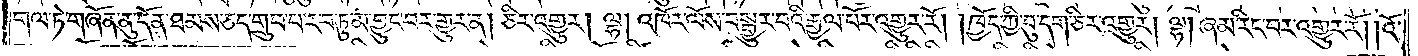གལ་ཏེ་གཞོན་ནུ་དོན་ཐམས་ཅད་གྲུབ་པ་རབ་ཏུ་མ་བྱུང་བར་གྱུར་ན། ཅིར་འགྱུར། ལྷ། འཁོར་ལོས་བསྒྱུར་བའི་རྒྱལ་པོར་འགྱུར་རོ། །ཁྱོད་ཀྱི་བུ་དག་ཅིར་འགྱུར། ལྷ། ཞམ་རིང་བར་འགྱུར་རོ། །འོ་
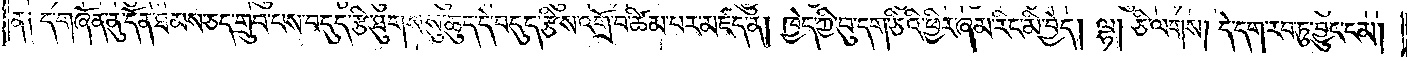ན༑ ད་གཞོན་ནུ་དོན་ཐམས་ཅད་གྲུབ་པས་བདུད་རྩི་ཐུགས་སུ་ཆུད་དེ་བདུད་རྩིས་འགྲོ་བ་ཚིམ་པར་མཛད་ན། ཁྱོད་ཀྱི་བུ་དག་ཅིའི་ཕྱིར་ཞམ་རིང་མི་བྱེད། ལྷ། ཅི་ལགས། དེ་དག་རབ་ཏུ་བྱུང་ངམ།
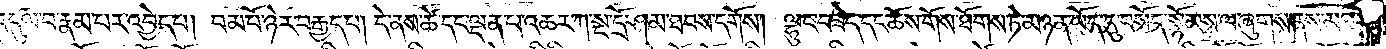འདུལ་བ་རྣམ་པར་འབྱེད་པ། བམ་པོ་ཉེ་བརྒྱད་པ། དེ་ནས་ཚེ་དང་ལྡན་པ་འཆར་ཀ་སྔ་དྲོ་ཤམ་ཐབས་དགོས། ལྷུང་བཟེད་དང་ཆོས་གོས་ཐོགས་ཏེ་མཉན་ཡོད་དུ་བསོད་སྙོམས་ལ་ཞུགས་ནས་མཐར་
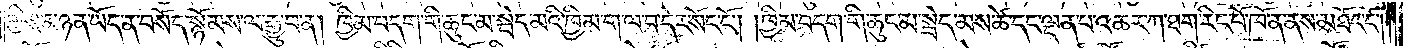གྱིས་མཉན་ཡོད་ན་བསོད་སྙོམས་ལ་རྒྱུ་བ་ན། ཁྱིམ་བདག་གི་ཆུང་མ་སྦེད་མའི་ཁྱིམ་ག་ལ་བ་དེར་སོང་ངོ༌། །ཁྱིམ་བདག་གི་ཆུང་མ་སྦེད་མས་ཚེ་དང་ལྡན་པ་འཆར་ཀ་ཐག་རིང་པོ་ཁོ་ན་ནས་མཐོང་ངོ༌། །
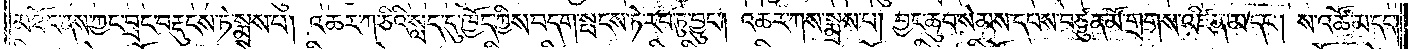མཐོང་ནས་ཀྱང་བྲང་བརྡུངས་ཏེ་སྨྲས་པ། འཆར་ཀ་ཅིའི་སླད་དུ་ཁྱོད་ཀྱིས་བདག་སྤངས་ཏེ་རབ་ཏུ་བྱུང༌། འཆར་ཀས་སྨྲས་པ། བྱང་ཆུབ་སེམས་དཔས་བཙུན་མོ་གྲགས་འཛིན་མ་དང༌། ས་འཚོ་མ་དང༌།
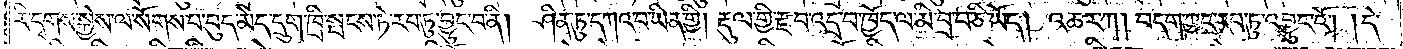རི་དྭགས་སྐྱེས་ལ་སོགས་པ་བུད་མེད་དྲུག་ཁྲི་སྤངས་ཏེ་རབ་ཏུ་བྱུང་བ་ནི། ཤིན་ཏུ་དཀའ་བ་ཡིན་གྱི། རྡུལ་གྱི་རྫ་བ་འདྲ་བ་ཁྱོད་ལ་མི་བྲ་བ་ཅི་ཡོད། འཆར་ཀ། བདག་ཀྱང་རབ་ཏུ་འབྱུང་ངོ༌། །དེ་
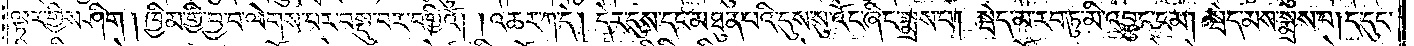ལྟར་གྱིས་ཤིག །ཁྱིམ་གྱི་བྱ་བ་ལེགས་པར་བསྡུ་བར་བགྱིའོ། །འཆར་ཀ་དེ། དེར་དུས་དང་མཐུན་པའི་དུས་སུ་འོང་ཞིང་སྨྲས་པ། སྦེད་མ་རབ་ཏུ་མི་འབྱུང་ངམ། སྦེད་མས་སྨྲས་པ། ད་དུང་
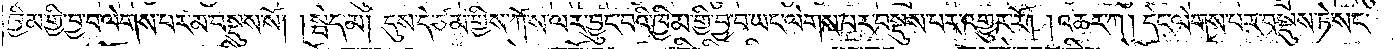ཁྱིམ་གྱི་བྱ་བ་ལེགས་པར་མ་བསྡུས་སོ། །སྦེད་མ། དུས་དེ་ཙམ་གྱིས་ཀོ་ས་ལར་བྱུང་བའི་ཁྱིམ་གྱི་བྱ་བ་ཡང་ལེགས་པར་བསྡུས་པར་འགྱུར་རོ། །འཆར་ཀ། དེང་ལེགས་པར་བསྡུས་ཏེ་སང་
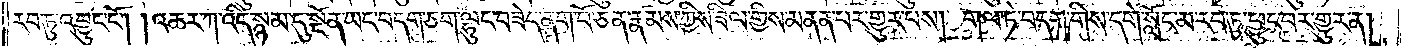རབ་ཏུ་འབྱུང་ངོ༌། །འཆར་ཀ་འདི་སྙམ་དུ་སྔོན་ཡང་བདག་ཅག་ལྷུང་བཟེད་ནག་པོ་ཅན་རྣམས་ཀྱིས་ཟིལ་གྱིས་མནན་པར་གྱུར་པས། གལ་ཏེ་བདག་གིས་དགེ་སློང་མ་རབ་ཏུ་ཕྱུང་བར་གྱུར་ན།
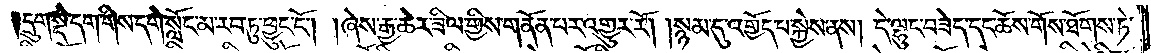དྲུག་སྡེ་དག་གིས་དགེ་སློང་མ་རབ་ཏུ་ཕྱུང་ངོ༌། །ཞེས་རྒྱ་ཆེར་ཟིལ་གྱིས་གནོན་པར་འགྱུར་རོ། །སྙམ་དུ་འགྱོད་པ་སྐྱེས་ནས། དེ་ལྷུང་བཟེད་དང་ཆོས་གོས་ཐོགས་ཏེ་
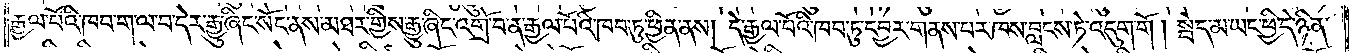རྒྱལ་པོའི་ཁབ་ག་ལ་བ་དེར་རྒྱུ་ཞིང་སོང་ནས་མཐར་གྱིས་རྒྱུ་ཞིང་འགྲོ་བ་ན་རྒྱལ་པོའི་ཁབ་ཏུ་ཕྱིན་ནས། དེ་རྒྱལ་པོའི་ཁབ་ཏུ་དབྱར་གནས་པར་ཁས་བླངས་ཏེ་འདུག་གོ །སྦེད་མ་ཡང་ཕྱི་དེ་ཉིན་
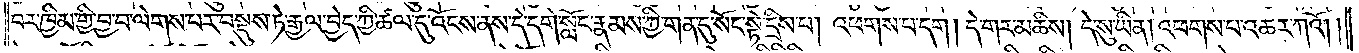བར་ཁྱིམ་གྱི་བྱ་བ་ལེགས་པར་བསྡུས་ཏེ་རྒྱལ་བྱེད་ཀྱི་ཚལ་དུ་འོངས་ནས་དེ་དགེ་སློང་རྣམས་ཀྱི་གན་དུ་སོང་སྟེ་དྲིས་པ། འཕགས་པ་དག །དེ་གར་མཆིས། དེ་སུ་ཡིན། འཕགས་པ་འཆར་ཀའོ། །
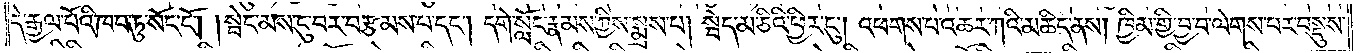དེ་རྒྱལ་པོའི་ཁབ་ཏུ་སོང་ངོ༌། །སྦེད་མས་ངུ་བར་བརྩམས་པ་དང༌། དགེ་སློང་རྣམས་ཀྱིས་སྨྲས་པ། སྦེད་མ་ཅིའི་ཕྱིར་ངུ༌། འཕགས་པ་འཆར་ཀའི་མཆིད་ནས། ཁྱིམ་གྱི་བྱ་བ་ལེགས་པར་བསྡུས་
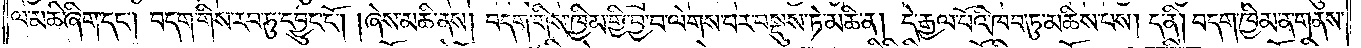ལ་མཆི་ཞིག་དང༌། བདག་གིས་རབ་ཏུ་དབྱུང་ངོ༌། །ཞེས་མཆི་ནས། བདག་གིས་ཁྱིམ་གྱི་བྱ་བ་ལེགས་པར་བསྡུས་ཏེ་མཆི་ན། དེ་རྒྱལ་པོའི་ཁབ་ཏུ་མཆིས་པས། ད་ནི། བདག་ཁྱིམ་ན་གནས་
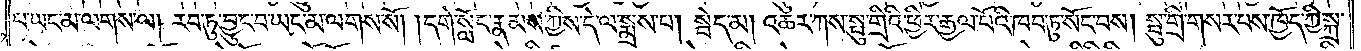པ་ཡང་མ་ལགས་ལ། རབ་ཏུ་བྱུང་བ་ཡང་མ་ལགས་སོ། །དགེ་སློང་རྣམས་ཀྱིས་དེ་ལ་སྨྲས་པ། སྦེད་མ། འཆར་ཀས་སྤུ་གྲིའི་ཕྱིར་རྒྱལ་པོའི་ཁབ་ཏུ་སོང་བས། སྤུ་གྲི་གསར་པས་ཁྱོད་ཀྱི་སྐྲ་
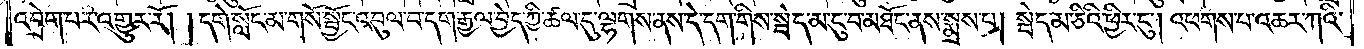འབྲེག་པར་འགྱུར་རོ། །དགེ་སློང་མ་གསོ་སྦྱོང་འབུལ་བ་དག་རྒྱལ་བྱེད་ཀྱི་ཚལ་དུ་ལྷགས་ནས་དེ་དག་གིས་སྦེད་མ་ངུ་བ་མཐོང་ནས་སྨྲས་པ། སྦེད་མ་ཅིའི་ཕྱིར་ངུ༌། འཕགས་པ་འཆར་ཀའི་
